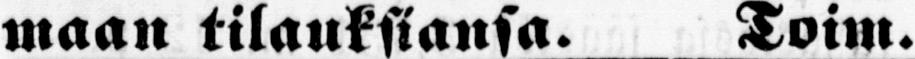maan tilauksiansa. Toim.
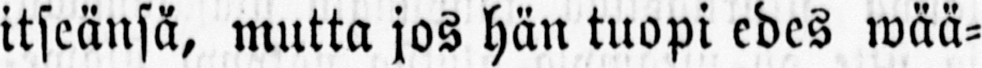itseänsä, mutta jos hän tuopi edes wää-
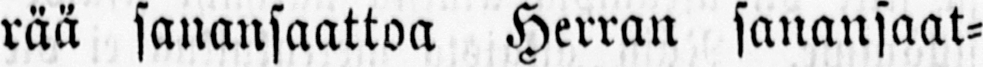rää sanansaattoa Herran sanansaat-
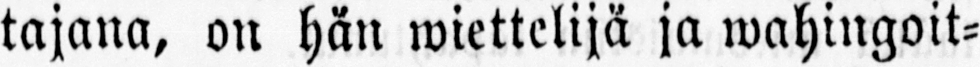tajana, on hän wiettelijä ja wahingoit-
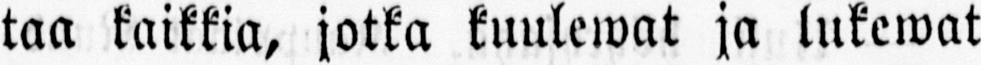taa kaikkia, jotka kuulewat ja lukewat
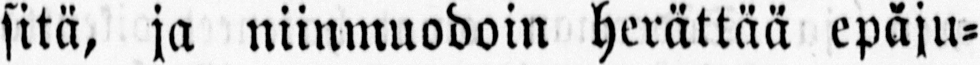sitä, ja niinmuodoin herättää epäju-
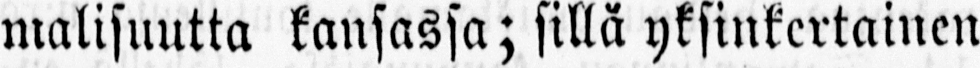malisuutta kansassa; sillä yksinkertainen
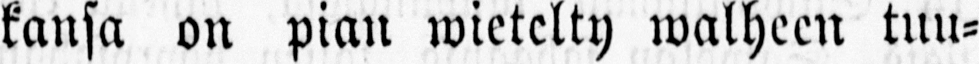kansa on pian wietelty walheen tuu-
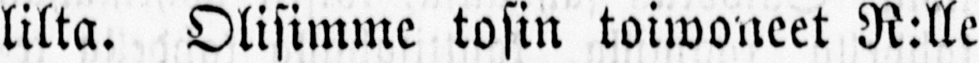lilta. Olisimme tosin toiwoneet R:lle
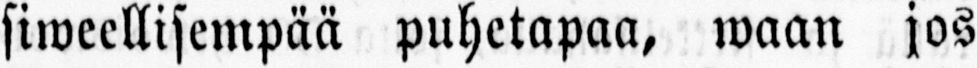siweellisempää puhetapaa, waan jos
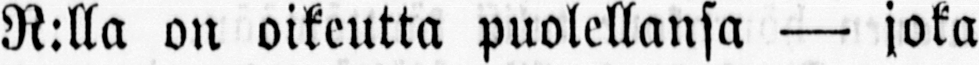R:lla on oikeutta puolellansa — joka
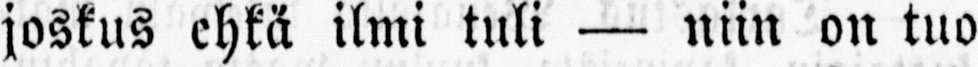joskus ehkä ilmi tuli — niin on tuo
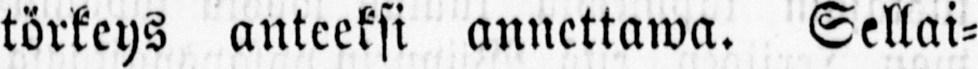törkeys anteeksi annettawa. Sellai-
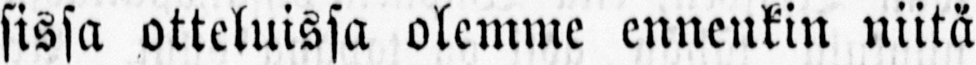sissa otteluissa olemme ennenkin niitä
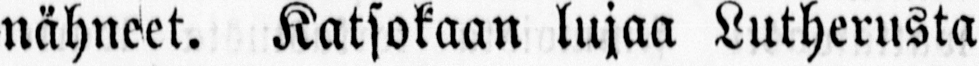nähneet. Katsokaan lujaa Lutherusta
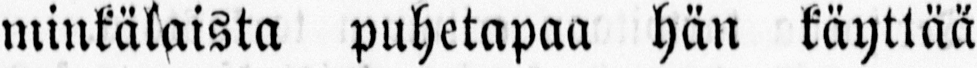minkälaista puhetapaa hän käyttää
